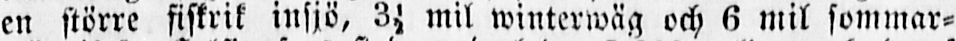en större fiskrik insjö, 3½ mil winterwäg och 6 mil sommar-
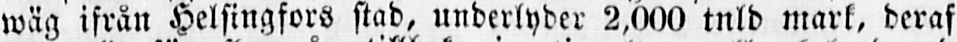wäg ifrån Helsingfors stad, underlyder 2,000 tnld mark, deraf
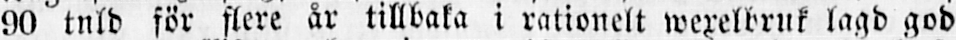90 tnld för flere år tillbaka i rationelt wexelbruk lagd god
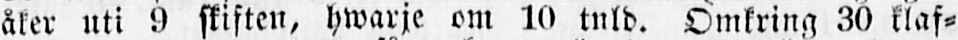åker uti 9 skiften, hwarje om 10 tnld. Omkring 30 klaf-
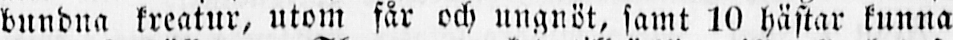bundna kreatur, utom får och ungnöt, samt 10 hästar kunna
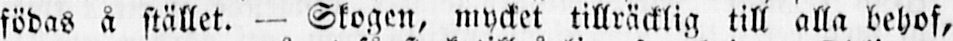födas å stället. - Skogen, mycket tillräcklig till alla behof,
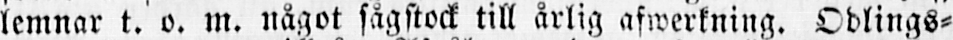lemnar t. o. m. något sågstock till årlig afwerkning. Odlings-
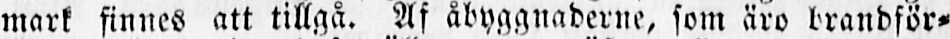mark finnes att tillgå. Af åbyggnaderne, som äro brandför-
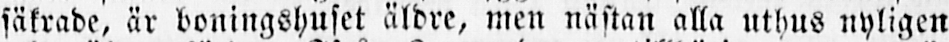säkrade, är boningshuset äldre, men nästan alla uthus nyligen
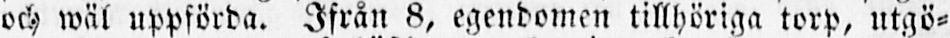och wäl uppförda. Ifrån 8, egendomen tillhöriga torp, utgö-
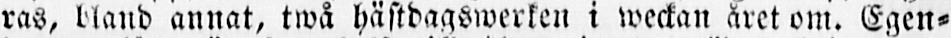ras, bland annat, twå hästdagswerken i weckan året om. Egen-
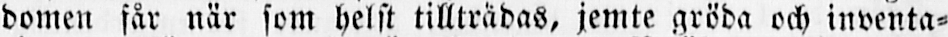domen får när som helst tillträdas, jemte gröda och inventa-
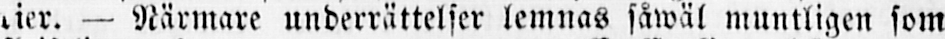rier. — Närmare underrättelser lemnas såwäl muntligen som
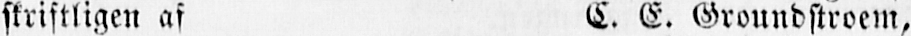skriftligen af C. E. Groundstroem,
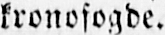kronofogde.
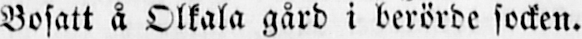Bosatt å Olkala gård i berörde socken.
